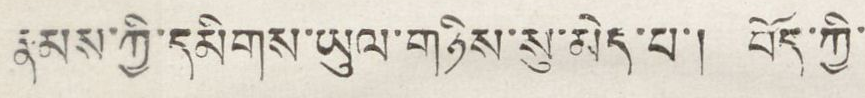རྣམས་ཀྱི་དམིགས་ཡུལ་གཉིས་སུ་མེད་པ། བོད་ཀྱི་
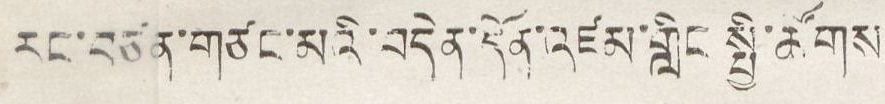རང་བཙན་གཙང་མའི་བདེན་དོན་འཛམ་གླིང་སྤྱི་ཚོགས
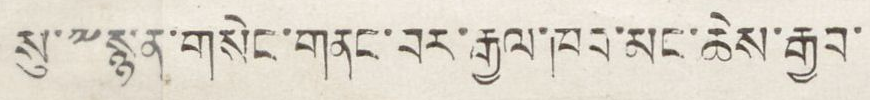སུ་༸སྙན་གསེང་གནང་བར་རྒྱལ་ཁབ་མང་ཆེས་རྒྱབ་
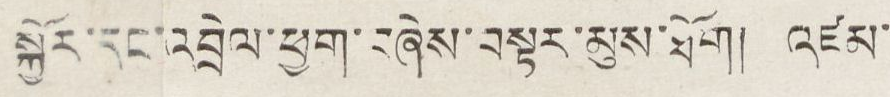སྐྱོར་དང་འབྲེལ་ཕྱག་བཞེས་བསྟར་མུས་ཐོག། འཛམ་
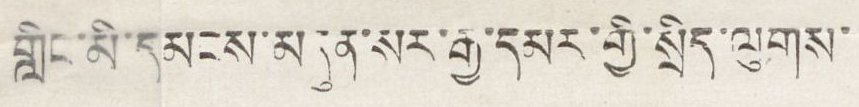གླིང་མི་དམངས་མདུན་སར་རྒྱ་དམར་གྱི་སྲིད་ལུགས་
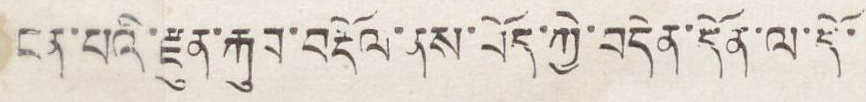ངན་པའི་རྫུན་རྐུབ་བརྡོལ་ནས་བོད་ཀྱི་བདེན་དོན་ལ་དོ་
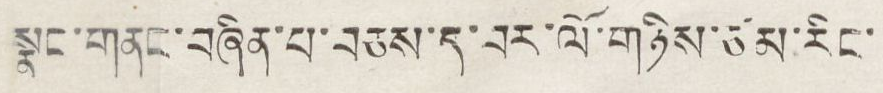སྣང་གནང་བཞིན་པ་བཅས་ད་བར་ལོ་གཉིས་ཙམ་རིང་
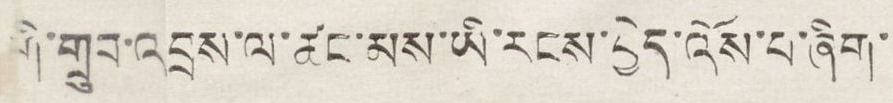གི་གྲུབ་འབྲས་ལ་ཚང་མས་ཡི་རངས་བྱེད་འོས་པ་ཞིག་
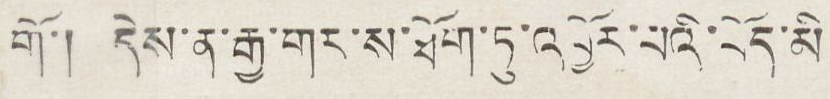གོ་། དེས་ན་རྒྱ་གར་ས་ཐོག་ཏུ་འབྱོར་པའི་བོད་མི
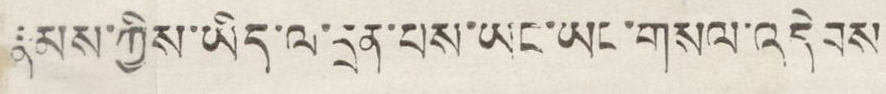རྣམས་ཀྱིས་ཡིད་ལ་དྲན་པས་ཡང་ཡང་གསལ་འདེབས
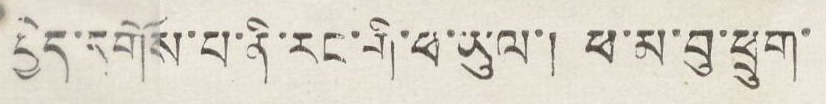བྱེད་དགོས་པ་ནི་རང་གི་ཕ་ཡུལ། ཕ་མ་བུ་ཕྲུག་
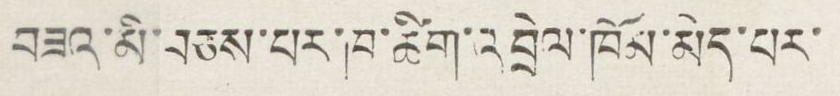བཟའ་མི་བཅས་པར་ཁ་ཚིག་འབྲེལ་ཁོམ་མེད་པར་
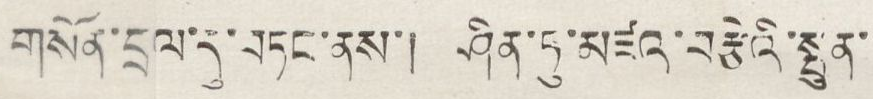གསོན་དྲལ་དུ་བཏང་ནས་། ཤིན་ཏུ་མཛའ་བརྩེའི་སྤུན་
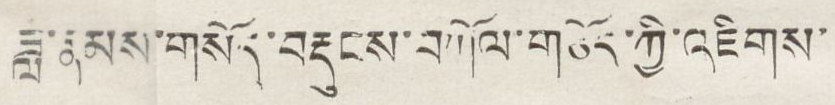ཟླ་རྣམས་གསོད་བརྡུངས་བཀོལ་གཅོད་ཀྱི་འཇིགས་
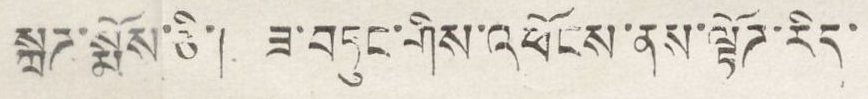སྐྲཊ་སྨོས་ཅི་། ཟ་བཏུང་གིས་འཕོངས་ནས་ལྟོཊ་རིད་
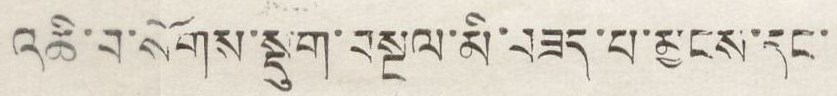འཆི་བ་སོགས་སྡུག་བསྔལ་མི་བཟད་པ་མྱངས་དང་
